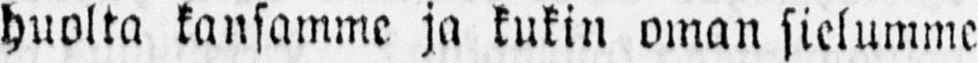huolta kansamme ja kukin oman sielumme
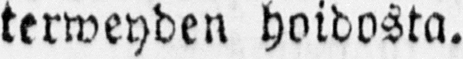terweyden hoidosta.
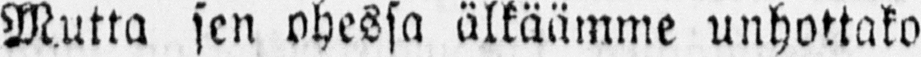Mutta sen ohessa älkäämme unhottako
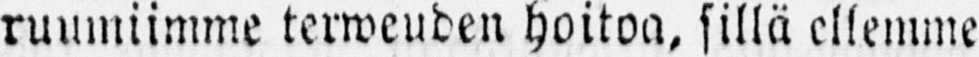ruumiimme terweuden hoitoa, sillä ellemme
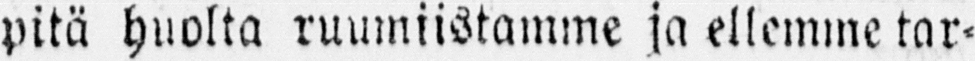pitä huolta ruumiistamme ja ellemme tar-
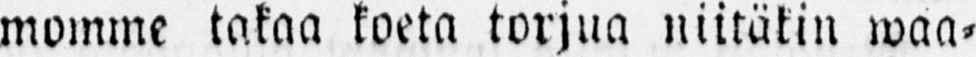momme takaa koeta torjua niitäkin waa-
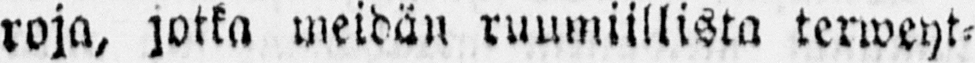roja, jotka meidän ruumiillista terweyt-
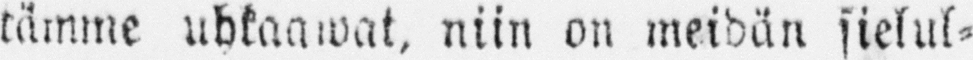tämme uhkaawat, niin on meidän sielul-
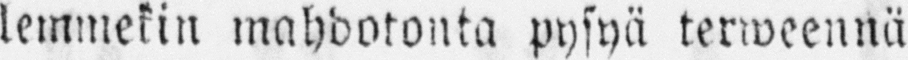lemmekin mahdotonta pysyä terweennä
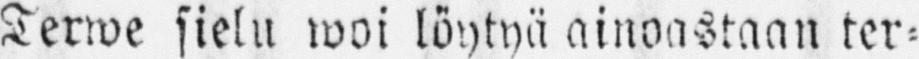Terwe sielu woi löytyä ainoastaan ter-
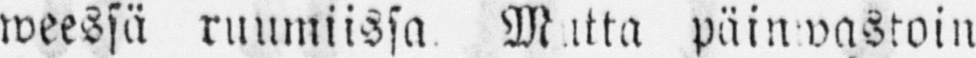weessä ruumiissa. Mutta päinwastoin
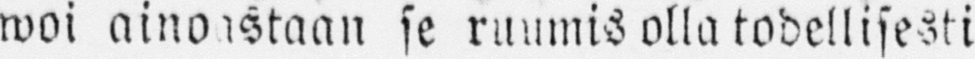woi ainoastaan se ruumis olla todellisesti
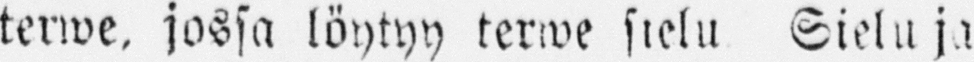terwe, jossa löytyy terwe sielu Sielu ja
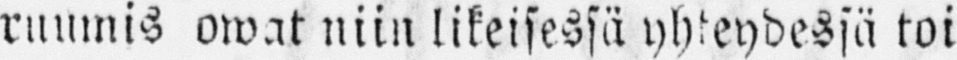ruumis owat niin likeisessä yhteydessä toi-
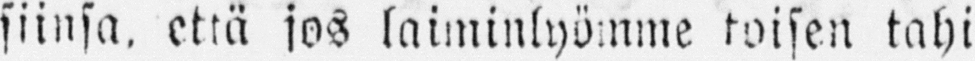siinsa, että jos laiminlyömme toisen tahi
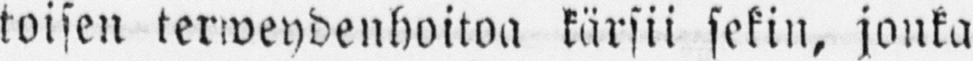toisen terweydenhoitoa kärsii sekin, jonka
